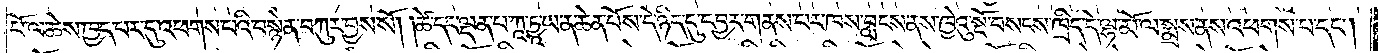པོ་ལ་ཆེས་ཁྱད་པར་དུ་འཕགས་པའི་བསྙེན་བཀུར་བྱས་སོ། །ཚེ་དང་ལྡན་པ་ཀཱ་ཏྱཱ་ཡ་ན་ཆེན་པོས་དེ་ཉིད་དུ་དབྱར་གནས་པར་ཁས་བླངས་ནས་ཁྱེའུ་སྔོ་བསངས་ཁྲིད་དེ་ལྷ་མོ་ལ་སྨྲས་ནས་འཕགས་པ་དང༌།
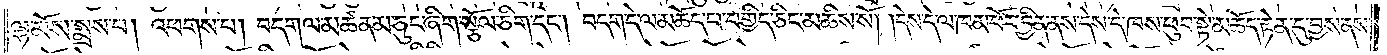ལྷ་མོས་སྨྲས་པ། འཕགས་པ། བདག་ལ་མཚན་མ་ཅུང་ཞིག་སྩོལ་ཅིག་དང༌། བདག་དེ་ལ་མཆོད་པ་བགྱིད་ཅིང་མཆིས་སོ། །དེས་དེ་ལ་ཁམ་ཕོར་བྱིན་ནས་དེས་དེ་ཁས་ཕུབ་སྟེ་མཆོད་རྟེན་དུ་བྱས་ནས་
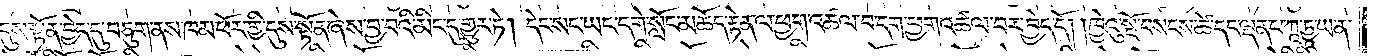དུས་སྟོན་བྱེད་དུ་བཅུག་ནས་ཁམ་ཕོར་གྱི་དུས་སྟོན་ཞེས་བྱ་བའི་མིང་དུ་གྱུར་ཏེ། དེང་སང་ཡང་དགེ་སློང་མཆོད་རྟེན་ལ་ཕྱག་འཚལ་བ་དག་ཕྱག་འཚལ་བར་བྱེད་དོ། །ཁྱེའུ་སྔོ་བསངས་ཚེ་དང་ལྡན་པ་ཀཱ་ཏྱཱ་ཡ་ན་
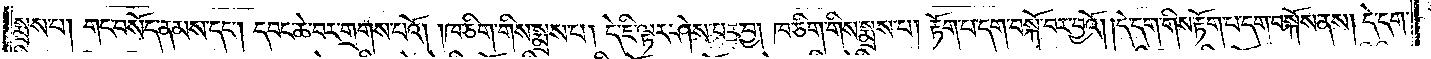སྨྲས་པ། གང་བསོད་ནམས་དང༌། དབང་ཆེ་བར་གྲགས་པའོ། །ཁ་ཅིག་གིས་སྨྲས་པ། དེ་ཇི་ལྟར་ཤེས་པར་བྱ། ཁ་ཅིག་གིས་སྨྲས་པ། རྟོག་པ་དག་བསྒོ་བར་བྱའོ། །དེ་དག་གིས་རྟོག་པ་དག་བསྐོས་ནས། དེ་དག་
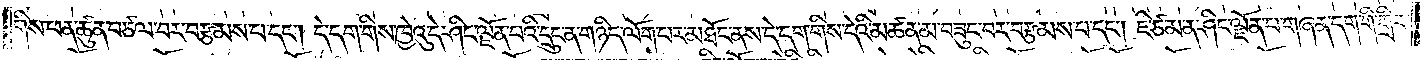གིས་ཕན་ཚུན་བཅལ་བར་བརྩམས་པ་དང༌། དེ་དག་གིས་ཁྱེའུ་དེ་ཤིང་ལྗོན་པའི་དྲུང་ན་གཉིད་ལོག་པར་མཐོང་ནས་དེ་དག་གིས་དེའི་མཚན་མ་བཟུང་བར་བརྩམས་པ་དང༌། ཇི་ཙམ་ན་ཤིང་ལྗོན་པ་གཞན་དག་གི་གྲིབ་
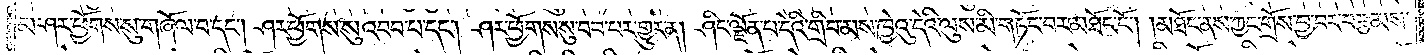མ་ཤར་ཕྱོགས་སུ་གཞོལ་བ་དང༌། ཤར་ཕྱོགས་སུ་འབབ་པ་དང༌། ཤར་ཕྱོགས་སུ་བབ་པར་གྱུར་ན། ཤིང་ལྗོན་པ་དེའི་གྲིབ་མས་ཁྱེའུ་དེའི་ལུས་མི་གཏོང་བར་མཐོང་ངོ༌། །མཐོང་ནས་ཀྱང་གྲོས་བྱ་བར་བརྩམས་
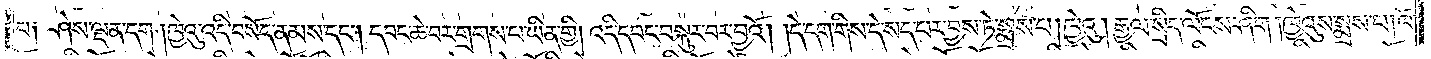པ༑ ཤེས་ལྡན་དག །ཁྱེའུ་འདི་བསོད་ནམས་དང༌། དབང་ཆེ་བར་གྲགས་པ་ཡིན་གྱི། འདི་དབང་བསྐུར་བར་བྱའོ། །དེ་དག་གིས་དེ་སད་པར་བྱས་ཏེ་སྨྲས་པ། ཁྱེའུ། རྒྱལ་སྲིད་ལོངས་ཤིག །ཁྱེའུས་སྨྲས་པ། ཁོ་
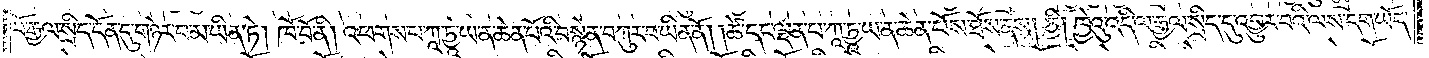བོ་རྒྱལ་སྲིད་དོན་དུ་གཉེར་བ་མ་ཡིན་ཏེ། ཁོ་བོ་ནི། འཕགས་པ་ཀཱ་ཏྱཱ་ཡ་ན་ཆེན་པོའི་བསྙེན་བཀུར་བ་ཡིན་ནོ། །ཚེ་དང་ལྡན་པ་ཀཱ་ཏྱཱ་ཡ་ན་ཆེན་པོས་ཐོས་ནས། ཅི། ཁྱེའུ་འདི་ལ་རྒྱལ་སྲིད་དུ་འགྱུར་བའི་ལས་དག་ཡོད་
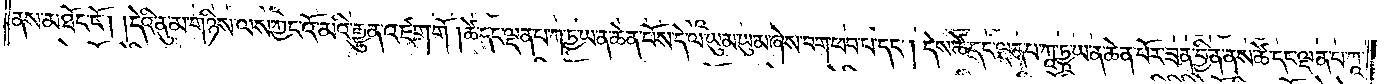ནས་མཐོང་ངོ༌། །དེའི་ནུ་མ་གཉིས་ལས་ཀྱང་འོ་མའི་རྒྱུན་འཛག་གོ །ཚེ་དང་ལྡན་པ་ཀ་ཏྱ་ཡ་ན་ཆེན་པོས་དེ་ལ་ཡུམ་ཡུམ་ཞེས་ཁག་ཕབ་པ་དང༌། དེས་ཚེ་དང་ལྡན་པ་ཀཱ་ཏྱཱ་ཡ་ན་ཆེན་པོར་ཟན་བྱིན་ནས་ཚེ་དང་ལྡན་པ་ཀཱ་
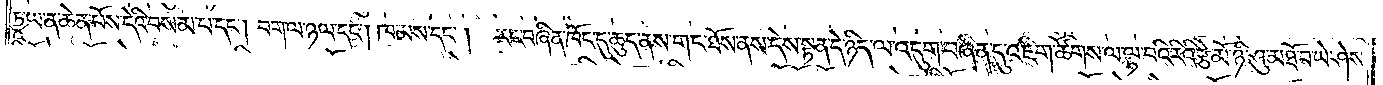ཏྱཱ་ཡ་ན་ཆེན་པོས་དེའི་བསམ་པ་དང༌། བག་ལ་ཉལ་དང༌། ཁམས་དང༌། རང་བཞིན་ཁོང་དུ་ཆུད་ནས་གང་ཐོས་ནས་དེས་སྟན་དེ་ཉིད་ལ་འདུག་བཞིན་དུ་འཇིག་ཚོགས་ལ་ལྟ་བའི་རིའི་རྩེ་མོ་ཉི་ཤུ་མཐོ་བ་ཡེ་ཤེས་
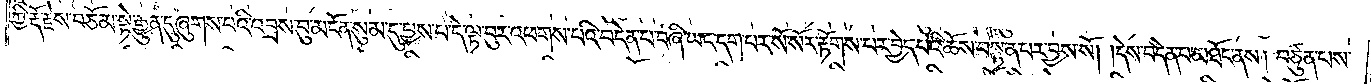ཀྱི་རྡོ་རྗེས་བཅོམ་སྟེ་རྒྱུན་དུ་ཞུགས་པའི་འབྲས་བུ་མངོན་སུམ་དུ་བྱས་པ་དེ་ལྟ་བུར་འཕགས་པའི་བདེན་པ་བཞི་ཡང་དག་པར་སོ་སོར་རྟོགས་པར་བྱེད་པའི་ཆོས་བསྟན་པར་བྱས་སོ། །དེས་བདེན་པ་མཐོང་ནས། བཙུན་པས་
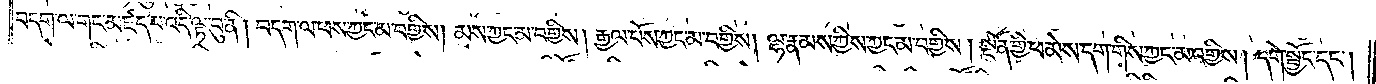བདག་ལ་གང་མཛད་པ་འདི་ལྟ་བུ་ནི། བདག་ལ་ཕས་ཀྱང་མ་བགྱིས། མས་ཀྱང་མ་བགྱིས། རྒྱལ་པོས་ཀྱང་མ་བགྱིས། ལྷ་རྣམས་ཀྱིས་ཀྱང་མ་བགྱིས། སྔོན་གྱི་ཕ་མེས་དག་གིས་ཀྱང་མ་བགྱིས། དགེ་སྦྱོང་དང༌།
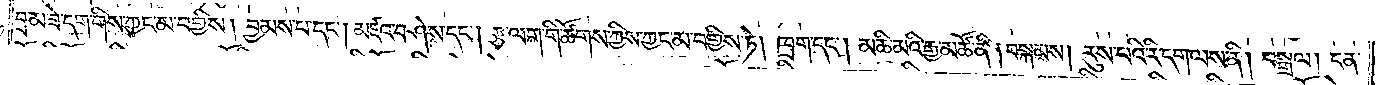བྲམ་ཟེ་དག་གིས་ཀྱང་མ་བགྱིས། བྱམས་པ་དང༌། མཛའ་བཤེས་དང༌། རྩ་ལག་གི་ཚོགས་ཀྱིས་ཀྱང་མ་བགྱིས་ཏེ། ཁྲག་དང༌། མཆི་མའི་རྒྱ་མཚོ་ནི། བསྐམས། རུས་པའི་རི་དག་ལས་ནི། བསྒྲལ། ངན་
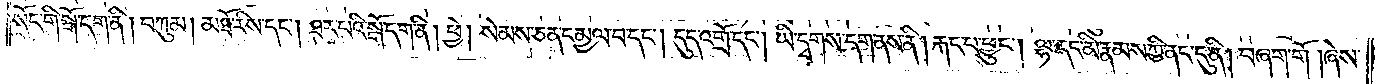སོང་གི་སྒོ་དག་ནི། བཀུམ། མཐོ་རིས་དང༌། ཐར་པའི་སྒོ་དག་ནི། ཕྱེ། སེམས་ཅན་དམྱལ་བ་དང༌། དུད་འགྲོ་དང༌། ཡི་དྭགས་དག་ནས་ནི། རྐང་པ་ཕྱུང༌། ལྷ་དང་མི་རྣམས་ཀྱི་ནང་དུ་ནི། བཞག་གོ །ཞེས་
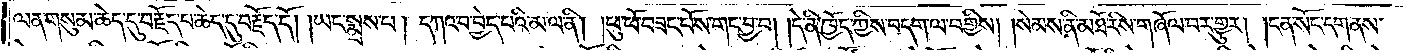ལན་གསུམ་ཆེད་དུ་བརྗོད་པ་ཆེད་དུ་བརྗོད་དོ། །ཡང་སྨྲས་པ། དཀའ་བ་བྱེད་པའི་མ་ལ་ནི། །ཕུ་ཕོ་བཟང་པོས་གང་བྱ་བ། །དེ་ནི་ཁྱོད་ཀྱིས་བདག་ལ་བགྱིས། །སེམས་ནི་མཐོ་རིས་གཞོལ་བར་གྱུར། །ངན་སོང་དག་ནས་
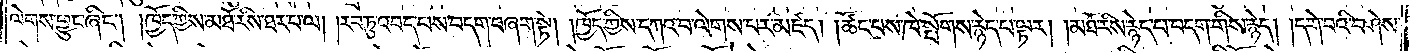ལེགས་ཕྱུང་ཞིང༌། །ཁྱོད་ཀྱིས་མཐོ་རིས་ཐར་པ་ལ། །རབ་ཏུ་འབད་པས་བདག་བཞག་སྟེ། །ཁྱོད་ཀྱིས་དཀའ་བ་ལེགས་པར་མཛད། །ཚོང་པས་ཁེ་སྤོགས་རྙེད་པ་ལྟར། །མཐོ་རིས་རྙེད་པ་བདག་གིས་རྙེད། །དགེ་བའི་བཤེས་
